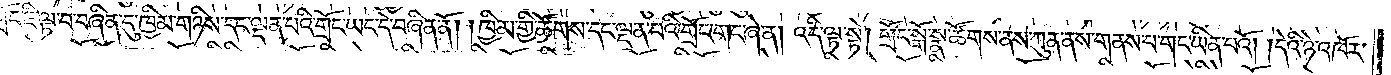གྲོང་ཇི་ལྟ་བ་བཞིན་དུ་ཁྱིམ་གཉིས་དང་ལྡན་པའི་གྲོང་ཡང་དེ་བཞིན་ནོ། །ཁྱིམ་གྱི་ཚོགས་དང་ལྡན་པའི་གྲོང་གང་ཞེ་ན། འདི་ལྟ་སྟེ། གྲོང་སྒོ་སྣ་ཚོགས་ནས་ཀུན་ནས་གནས་པ་གང་ཡིན་པའོ། །དེའི་ཉེ་འཁོར་
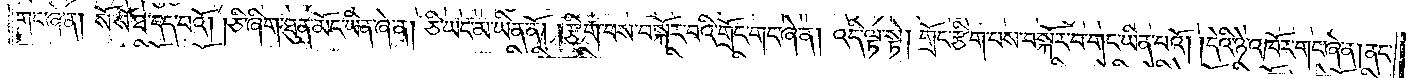གང་ཞེ་ན། སོ་སོ་ཐ་དད་པའོ། །ཅི་ཞིག་ཐུན་མོང་ཡིན་ཞེ་ན། ཅི་ཡང་མ་ཡིན་ནོ། །རྩིག་པས་བསྐོར་བའི་གྲོང་གང་ཞེ་ན། འདི་ལྟ་སྟེ། གྲོང་རྩིག་པས་བསྐོར་བ་གང་ཡིན་པའོ། །དེའི་ཉེ་འཁོར་གང་ཞེ་ན། ནང་
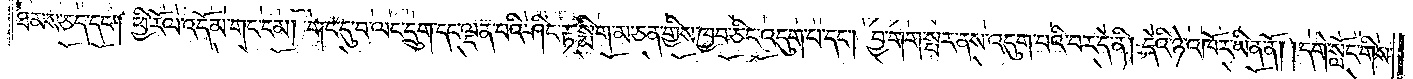ཐམས་ཅད་དང༌། ཕྱི་རོལ་འདོམ་གང་ངམ། གང་དུ་བ་ལང་དྲུག་དང་ལྡན་པའི་ཤིང་རྟ་སྨིག་མ་ཅན་གྱིས་ཁྱབ་ཅིང་འདུག་པ་དང༌། བྱ་གག་སྤར་ནས་འདུག་པའི་བར་དེ་ནི། དེའི་ཉེ་འཁོར་ཡིན་ནོ། །དགེ་སློང་གིས་
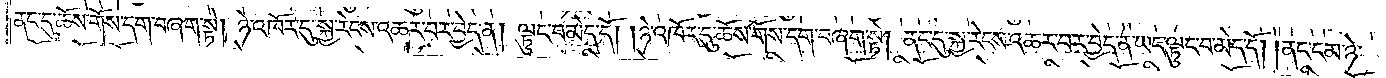ནང་དུ་ཆོས་གོས་དག་བཞག་སྟེ། ཉེ་འཁོར་དུ་སྐྱ་རེངས་འཆར་བར་བྱེད་ན། ལྟུང་བ་མེད་དོ། །ཉེ་འཁོར་དུ་ཆོས་གོས་དག་བཞག་སྟེ། ནང་དུ་སྐྱ་རེངས་འཆར་བར་བྱེད་ན་ཡང་ལྟུང་བ་མེད་དོ། །ནང་ངམ་ཉེ་
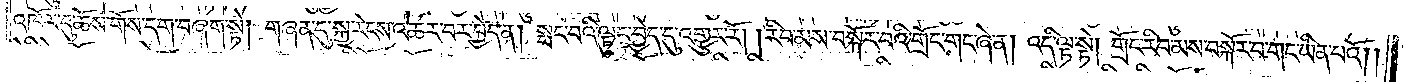འཁོར་དུ་ཆོས་གོས་དག་བཞག་སྟེ། གཞན་དུ་སྐྱ་རེངས་འཆར་བར་བྱེད་ན། སྤང་བའི་ལྟུང་བྱེད་དུ་འགྱུར་རོ། །རིབ་མས་བསྐོར་བའི་གྲོང་གང་ཞེ་ན། འདི་ལྟ་སྟེ། གྲོང་རིབ་མས་བསྐོར་བ་གང་ཡིན་པའོ༎
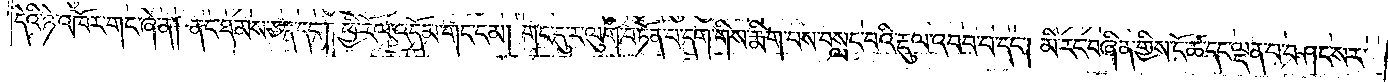དེའི་ཉེ་འཁོར་གང་ཞེ་ན། ནང་ཐམས་ཅད་དང༌། ཕྱི་རོལ་འདོམ་གང་ངམ། གང་དུ་ར་ལུག་བཏོན་པ་དག་གིས་རྨིག་པས་བསླང་བའི་རྡུལ་འབབ་པ་དང༌། མི་རང་བཞིན་གྱིས་ངོ་ཚ་དང་ལྡན་པ་བཤང་སར་
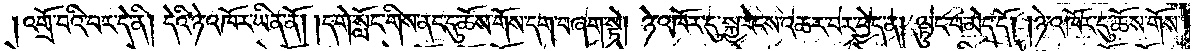འགྲོ་བའི་བར་དེ་ནི། དེའི་ཉེ་འཁོར་ཡིན་ནོ། །དགེ་སློང་གིས་ནང་དུ་ཆོས་གོས་དག་བཞག་སྟེ། ཉེ་འཁོར་དུ་སྐྱ་རེངས་འཆར་བར་བྱེད་ན། ལྟུང་བ་མེད་དོ། །ཉེ་འཁོར་དུ་ཆོས་གོས་
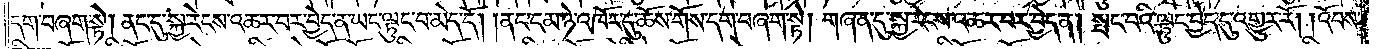དག་བཞག་སྟེ། ནང་དུ་སྐྱ་རེངས་འཆར་བར་བྱེད་ན་ཡང་ལྟུང་བ་མེད་དོ། །ནང་ངམ་ཉེ་འཁོར་དུ་ཆོས་གོས་དག་བཞག་སྟེ། གཞན་དུ་སྐྱ་རེངས་འཆར་བར་བྱེད་ན། སྤང་བའི་ལྟུང་བྱེད་དུ་འགྱུར་རོ། །འོབས་
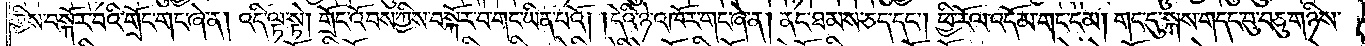ཀྱིས་བསྐོར་བའི་གྲོང་གང་ཞེ་ན། འདི་ལྟ་སྟེ། གྲོང་འོབས་ཀྱིས་བསྐོར་བ་གང་ཡིན་པའོ། །དེའི་ཉེ་འཁོར་གང་ཞེ་ན། ནང་ཐམས་ཅད་དང༌། ཕྱི་རོལ་འདོམ་གང་ངམ། གང་དུ་སྐས་གདང་བུ་བཅུ་གཉིས་
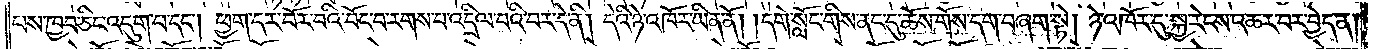པས་ཁྱབ་ཅིང་འདུག་པ་དང༌། ཕྱག་དར་བོར་བའི་བོང་བ་རགས་པ་འདྲིལ་བའི་བར་དེ་ནི། དེའི་ཉེ་འཁོར་ཡིན་ནོ། །དགེ་སློང་གིས་ནང་དུ་ཆོས་གོས་དག་བཞག་སྟེ། ཉེ་འཁོར་དུ་སྐྱ་རེངས་འཆར་བར་བྱེད་ན་
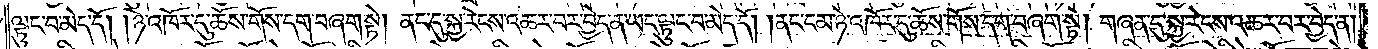ལྟུང་བ་མེད་དོ། །ཉེ་འཁོར་དུ་ཆོས་གོས་དག་བཞག་སྟེ། ནང་དུ་སྐྱ་རེངས་འཆར་བར་བྱེད་ན་ཡང་ལྟུང་བ་མེད་དོ། །ནང་ངམ་ཉེ་འཁོར་དུ་ཆོས་གོས་དག་བཞག་སྟེ། གཞན་དུ་སྐྱ་རེངས་འཆར་བར་བྱེད་ན།
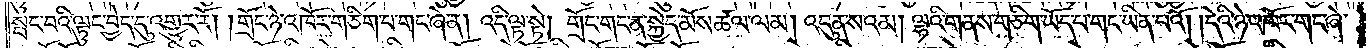སྤང་བའི་ལྟུང་བྱེད་དུ་འགྱུར་རོ། །གྲོང་ཉེ་འཁོར་གཅིག་པ་གང་ཞེ་ན། འདི་ལྟ་སྟེ། གྲོང་གང་ན་སྐྱེད་མོས་ཚལ་ལམ། འདུན་སའམ། ལྷའི་གནས་གཅིག་ཡོད་པ་གང་ཡིན་པའོ། །དེའི་ཉེ་འཁོར་གང་ཞེ་
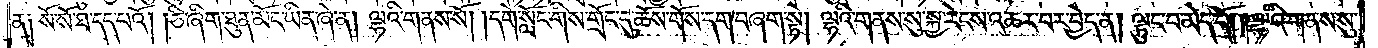ན༑ སོ་སོ་ཐ་དད་པའོ། །ཅི་ཞིག་ཐུན་མོང་ཡིན་ཞེ་ན། ལྷའི་གནས་སོ། །དགེ་སློང་གིས་གྲོང་དུ་ཆོས་གོས་དག་བཞག་སྟེ། ལྷའི་གནས་སུ་སྐྱ་རེངས་འཆར་བར་བྱེད་ན། ལྟུང་བ་མེད་དོ། །ལྷའི་གནས་སུ་
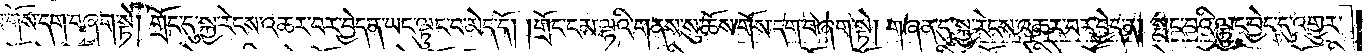ཆོས་གོས་དག་བཞག་སྟེ། གྲོང་དུ་སྐྱ་རེངས་འཆར་བར་བྱེད་ན་ཡང་ལྟུང་བ་མེད་དོ། །གྲོང་ངམ་ལྷའི་གནས་སུ་ཆོས་གོས་དག་བཞག་སྟེ། གཞན་དུ་སྐྱ་རེངས་འཆར་བར་བྱེད་ན། སྤང་བའི་ལྟུང་བྱེད་དུ་འགྱུར་
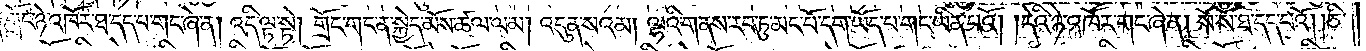གྲོང་ཉེ་འཁོར་ཐ་དད་པ་གང་ཞེ་ན། འདི་ལྟ་སྟེ། གྲོང་གང་ན་སྐྱེད་མོས་ཚལ་ལམ། འདུན་སའམ། ལྷའི་གནས་རབ་ཏུ་མང་པོ་དག་ཡོད་པ་གང་ཡིན་པའོ། །དེའི་ཉེ་འཁོར་གང་ཞེ་ན། སོ་སོ་ཐ་དད་པའོ། །ཅི་
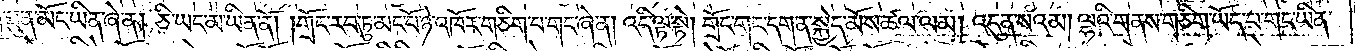ཞིག་ཐུན་མོང་ཡིན་ཞེ་ན། ཅི་ཡང་མ་ཡིན་ནོ། །གྲོང་རབ་ཏུ་མང་པོ་ཉེ་འཁོར་གཅིག་པ་གང་ཞེ་ན། འདི་ལྟ་སྟེ། གྲོང་གང་དག་ན་སྐྱེད་མོས་ཚལ་ལམ། འདུན་སའམ། ལྷའི་གནས་གཅིག་ཡོད་པ་གང་ཡིན་
